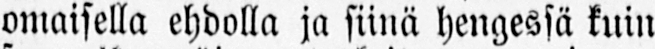omaisella ehdolla ja siinä hengessä kuin
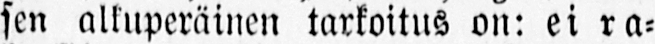sen alkuperäinen tarkoitus on: ei ra-
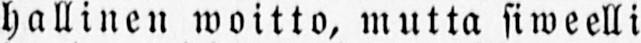hallinen woitto, mutta siweelli-
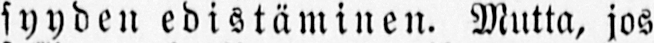syyden edistäminen. Mutta, jos
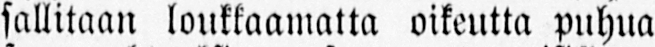sallitaan loukkaamatta oikeutta puhua
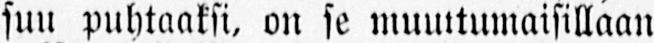suu puhtaaksi, on se muuttumaisillaan
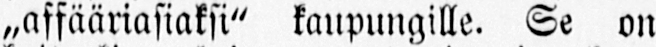˶affääriasiaksi" kaupungille. Se on
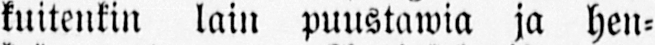kuitenkin lain puustawia ja hen-
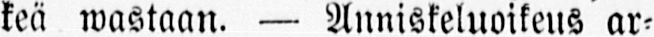keä wastaan. — Anniskeluoikeus ar-
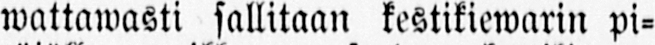wattawasti sallitaan kestikiewarin pi-
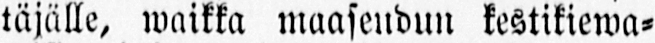täjälle, waikka maaseudun kestikiewa-
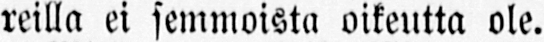reilla ei semmoista oikeutta ole.
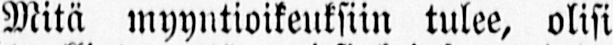Mitä myyntioikeuksiin tulee, olisi
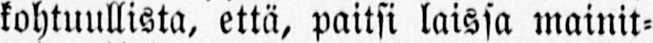kohtuullista, että, paitsi laissa mainit-
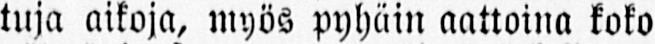tuja aikoja, myös pyhäin aattoina koko
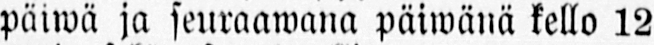päiwä ja seuraawana päiwänä kello 12
